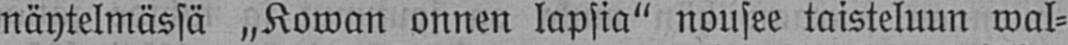näytelmässä „Kowan onnen lapsia" nousee taisteluun wal-
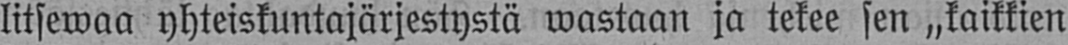litsewaa yhteiskuntajärjestystä wastaan ja tekee sen „kaikkien
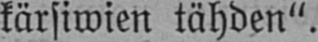kärsiwien tähden".
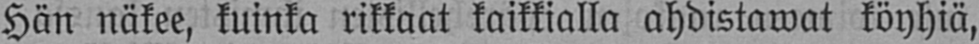Hän näkee, kuinka rikkaat kaikkialla ahdistawat köyhiä,
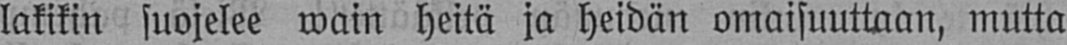lakikin suojelee wain heitä ja heidän omaisuuttaan, mutta
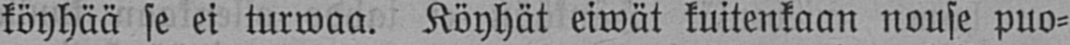köyhää se ei turwaa. Köyhät eiwät kuitenkaan nouse puo-
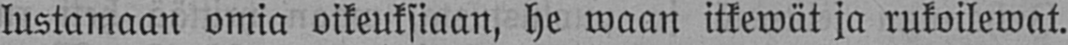lustamaan omia oikeuksiaan, he waan itkewät ja rukoilewat.
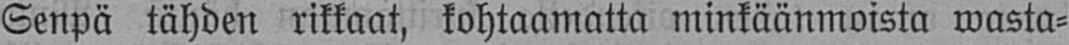Senpä tähden rikkaat, kohtaamatta minkäänmoista wasta-
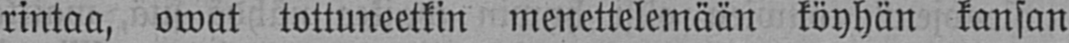rintaa, owat tottuneetkin menettelemään köyhän kansan
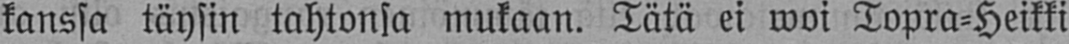kanssa täysin tahtonsa mukaan. Tätä ei woi Topra-Heikki
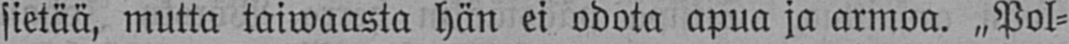sietää, mutta taiwaasta hän ei odota apua ja armoa. „Pol-
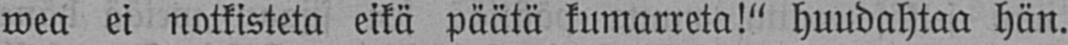wea ei notkisteta eikä päätä kumarreta!" huudahtaa hän.
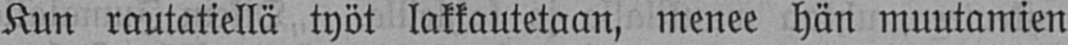Kun rautatiellä työt lakkautetaan, menee hän muutamien
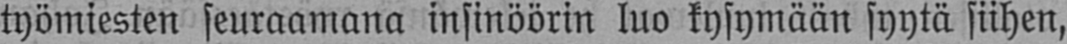työmiesten seuraamana insinöörin luo kysymään syytä siihen,
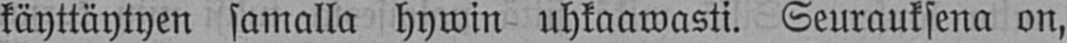käyttäytyen samalla hywin uhkaawasti. Seurauksena on,
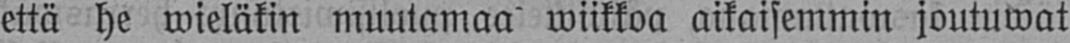että he wieläkin muutamaa wiikkoa aikaisemmin joutuwat
